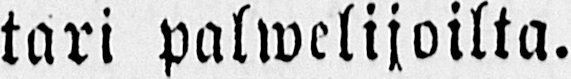tari palwelijoilta.
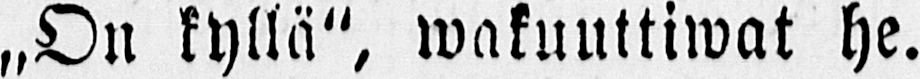„On kyllä", wakunttiwat he.
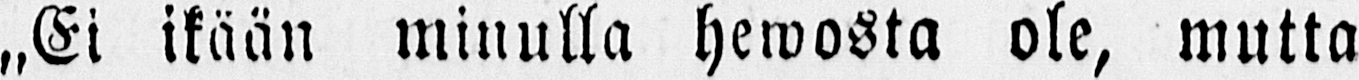„Ei ikään minulla hewosta ole, mutta
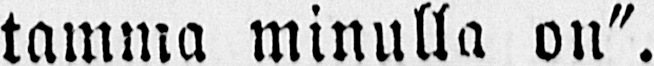tamma minulla on".
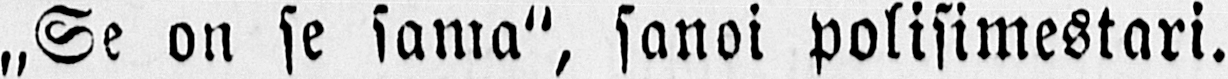„Se on se sama", sanoi polisimestari.
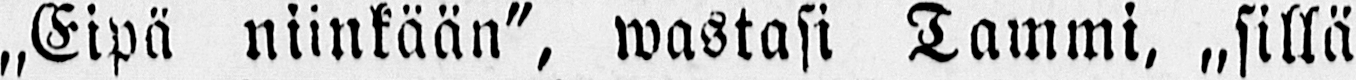„Eipä niinkään", wastasi Tammi, sillä
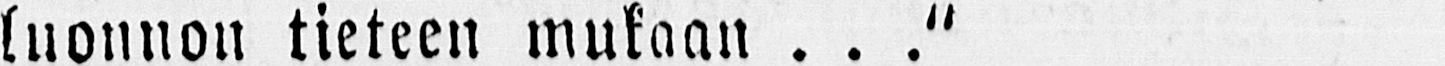luonnon tieteen mukaan . . ˮ
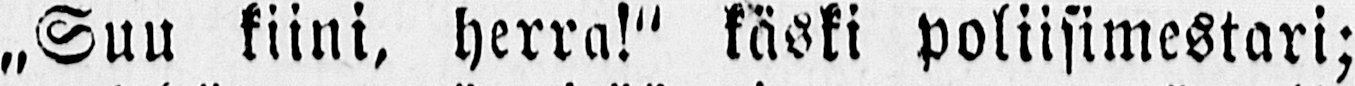„Suu kiini, herra!" käski poliisimestari;
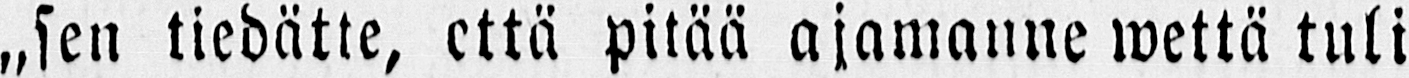„sen tiedätte, että pitää ajamanne wettä tuli
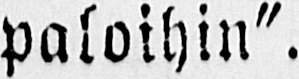paloihin".
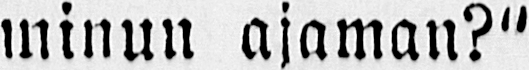minun ajaman?"
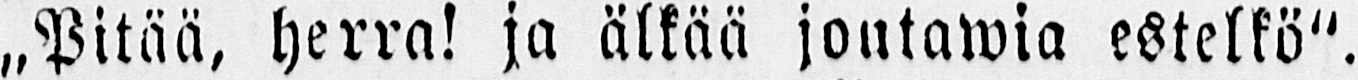„Pitää, herra! ja älkää joatawia estelkö".
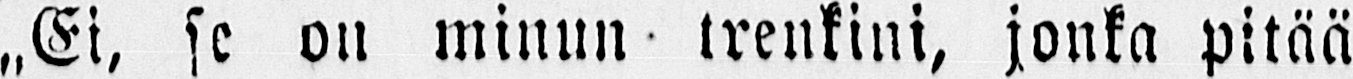„Ei, se on minun- trenkini, jonka pitää
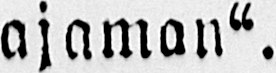ajamanˮ.
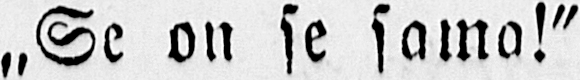„Se on se sama!"
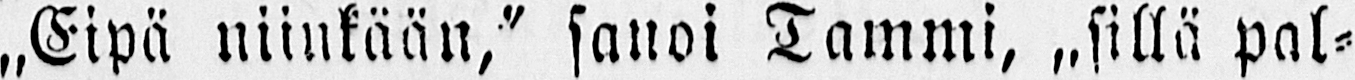„Eipä niinkään," sanoi Tammi, sillä pal-
